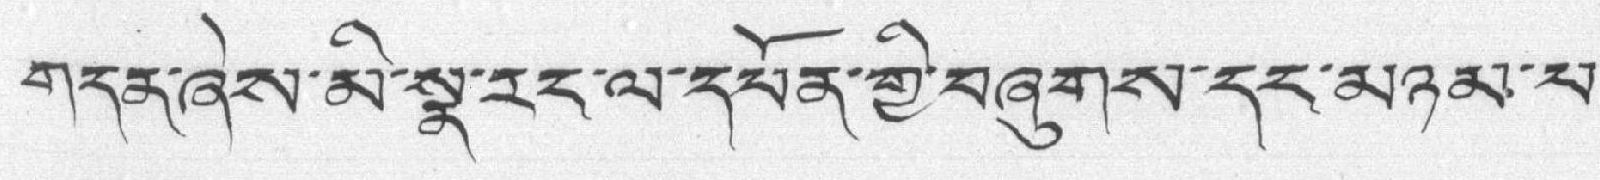གདན་ཞེས་མི་སྣ་རང་ལ་དཔོན་གྱི་བཞུགས་དང་མཉམ་པ་
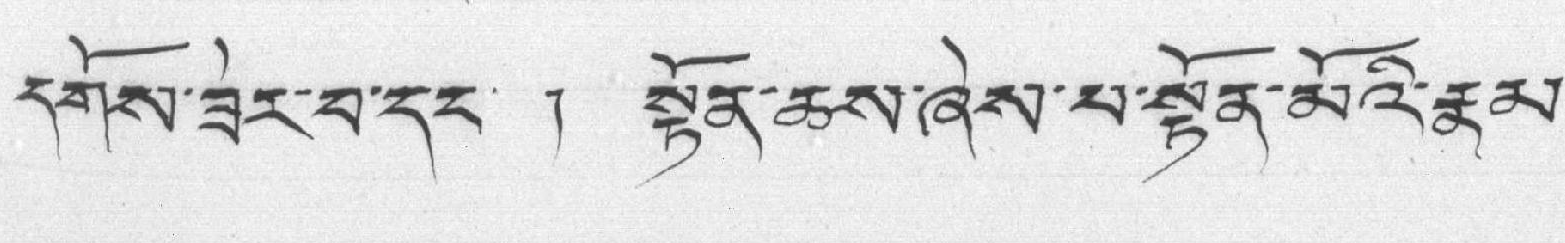དགོས་ཟེར་བ་དང་ ། སྟོན་ཆས་ཞེས་པ་སྟོན་མོའི་རྣམ་
